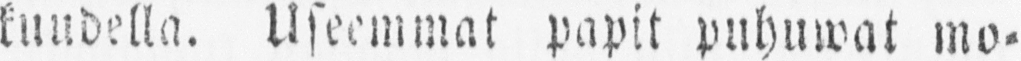kuudella. Useemmat papit puhuwat mo-
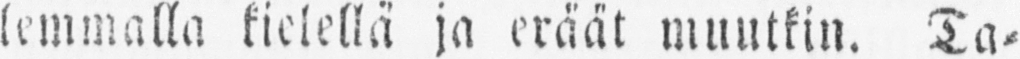lemmalla kielellä ja eräät muutkin. Ta-
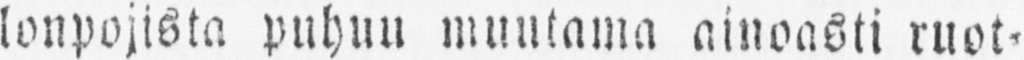lonpojista puhuu muutama ainoasti ruot-
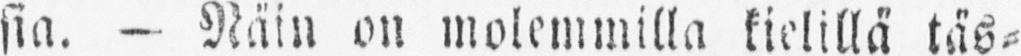sia. — Näin on molemmilla kielillä täs-
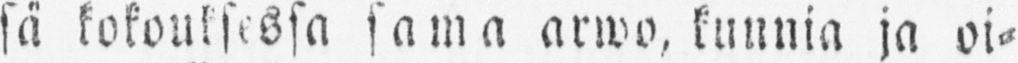sä kokouksessa sama arwo, kunnia ja oi-
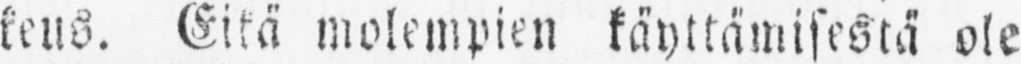keus. Eikä molempien käyttämisestä ole
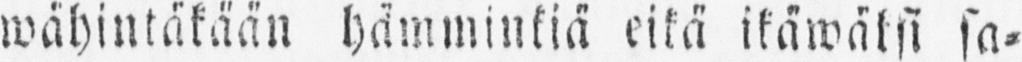wähintäkään hämminkiä eikä ikawäksi sa-
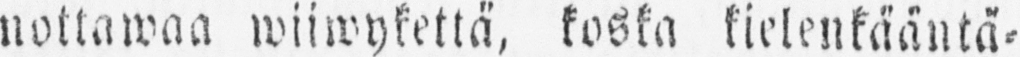nottawaa wiiwykettä, koska kielenkääntä-
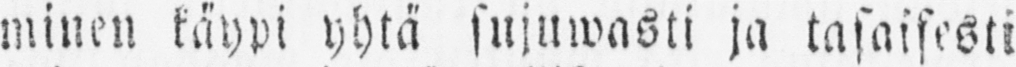minen käypi yhtä sujuwasti ja tasaisesti
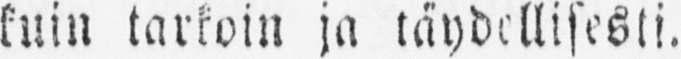kuin tarkoin ja täydellisesti.
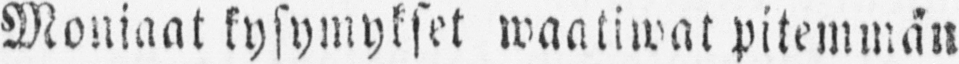Moniaat kysymykset waatiwat pitemmän
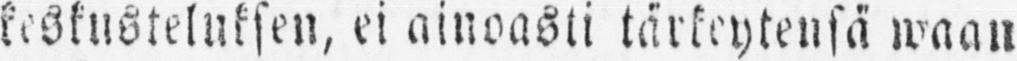keskusteluksen, ei ainoasti tärkeytensä waan
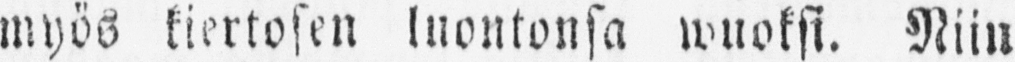myös kiertosen luontonsa wuoksi. Niin
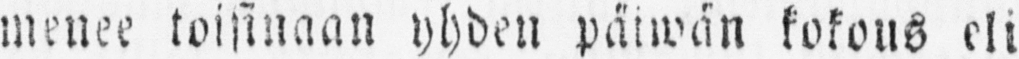menee toisinaan yhden päiwän kokous eli
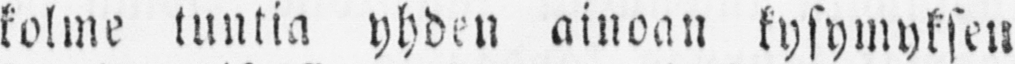kolme tuntia yhden ainoan kysymyksen
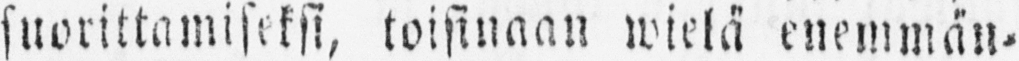suorittamiseksi, toisinaan wielä enemmän-
